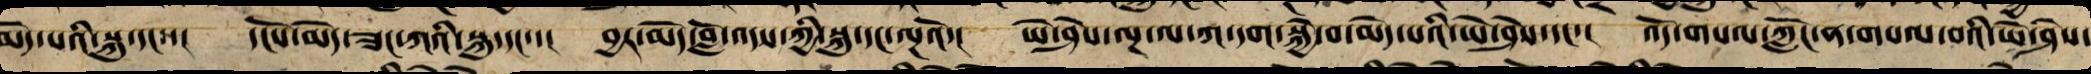མེད་པའི་སྐུ་དང་་། དངོས་མེད་ཟང་ཀའི་སྐུ་དང་་། བྱར་མེད་བློ་འདས་ཀྱི་སྐུ་དང་ལྔའོ་། ཡེ་ཤེས་ལྔ་ལ་ཀ་དག་སྐྱེ་བ་མེད་པའི་ཡེ་ཤེས་དང་་། འོད་གསལ་ཀློང་ནས་གསལ་བའི་ཡེ་ཤེས་
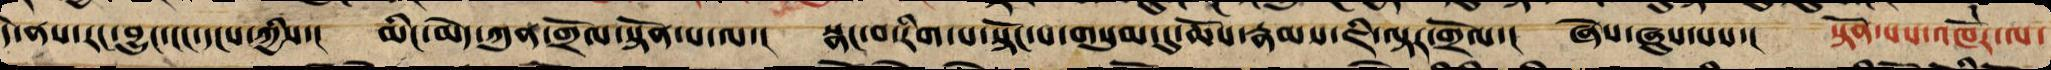ནས་རང་བྱུང་ངང་དངས་ཀྱིས་། མིང་མེད་ཀུན་གྲོལ་སྟོན་པ་ལ་། སྣང་བ་རིག་པ་སྟོང་པ་གསུམ་དུ་ཆོས་རྣམས་ཇི་ལྟར་གྲོལ་། ཞེས་ཞུས་པས་། སྟོན་པས་འཁོར་ལ་
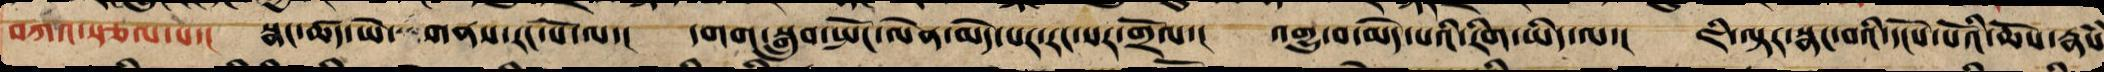བཀའ་སྩལ་པ་། སྣང་ཚད་ཡེ་གནས་རང་སོ་ལ་། དགག་བསྒྲུབ་སྤོང་ལེན་མེད་པར་རང་སར་གྲོལ་། འགྱུ་བ་མེད་པའི་རིག་ཡིད་ལ་། ཇི་ལྟར་སྣང་བའི་དངོས་པོའི་ཆོས་རྣཾས
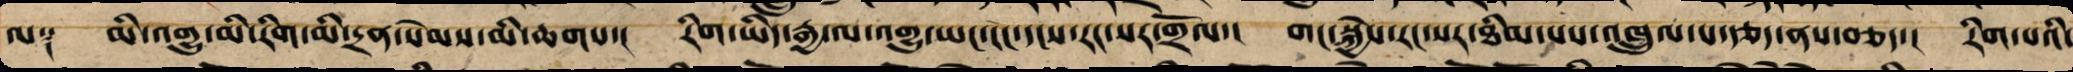ལ༑ མི་འགྱུ་མི་རིག་མི་དྲན་སེམས་མི་ཆགས་། རིག་ཡིད་རྒྱ་ལ་འགྱུ་ཡང་རང་དངས་རང་སར་གྲོལ་། གང་སྐྱེས་རང་སར་ཐིམས་པས་འཁྲུལ་པ་རྩད་ནས་བཅད་། རིག་པའི་
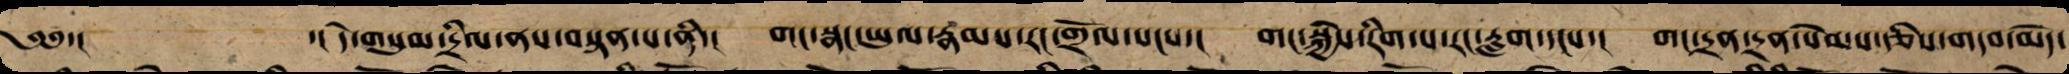༄༅་། ་། དེ་གསུམ་དྲིལ་ནས་བསྟན་པ་ནི་། གང་སྣང་ཡུལ་རྣམས་རང་གྲོལ་སངས་། གང་སྐྱེས་རིག་པ་རང་རླག་དངས་། གང་དྲན་དྲན་སེམས་རྩིས་གདབ་མེད་
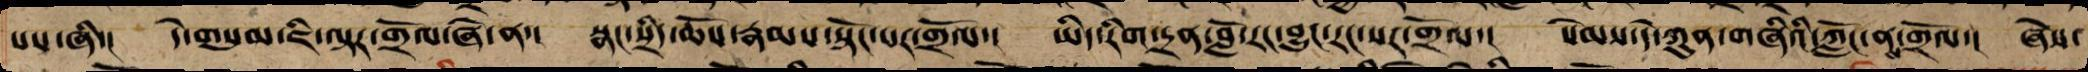པར་ཞི་། དེ་གསུམ་ཇི་ལྟར་གྲོལ་ཞེ་ན་། སྣང་སྲིད་ཆོས་རྣམས་སྟོང་པར་གྲོལ་། ཡིད་རིག་དྲན་བློ་རང་བྱུང་རང་སར་གྲོལ་། སེམས་དེ་ཀུན་གཞིའི་ཀློང་ནས་གྲོལ་། ཞེས་
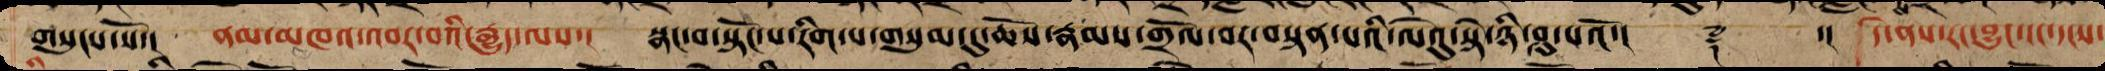གསུངས་སོ་། ནམ་མཁའ་འབར་བའི་རྒྱུད་ལས་། སྣང་བ་སྟོང་པ་རིག་པ་གསུམ་དུ་ཆོས་རྣམས་གྲོལ་བར་བསྟན་པའི་ལེའུ་སྟེ་ཉི་ཤུ་པའོ་།། ༈ ་།། དེ་ནས་རང་བྱུང་ངང་དངས་
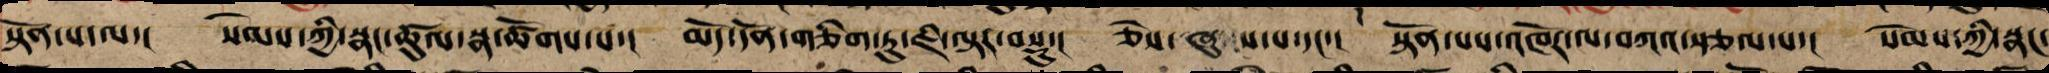སྟོན་པ་ལ་། སེམས་ཀྱི་སྣང་ཚུལ་སྣ་ཚོགས་པ་། མདོ་དོན་གཅིག་ཏུ་ཇི་ལྟར་བསྡུ་། ཅེས་ཞུས་པ་དང་་། སྟོན་པས་འཁོར་ལ་བཀའ་སྩལ་པ་། སེམས་ཀྱི་སྣང་
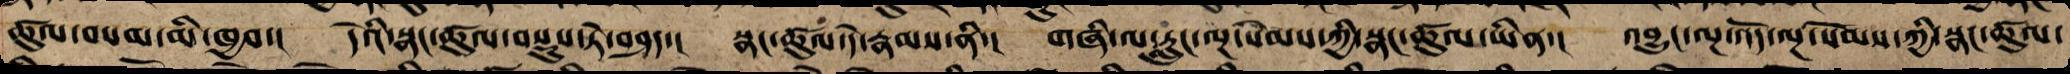ཚུལ་བསམ་མི་ཁྱབ་། དེའི་སྣང་ཚུལ་བསྡུས་ཏེ་བཤད་། སྣང་ཚུལ་དེ་རྣམས་ནི་། གཞི་ལ་རླུང་ལྔ་སེམས་ཀྱི་སྣང་ཚུལ་ཡིན་། འབྱུང་ལྔ་འོད་ལྔ་སེམས་ཀྱི་སྣང་ཚུལ་
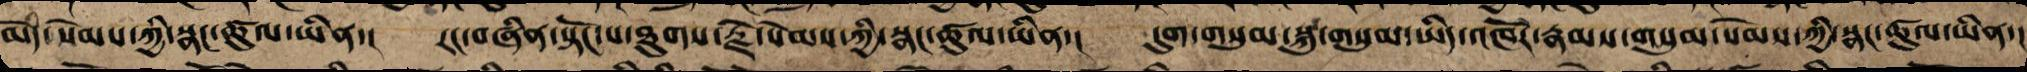མེད་སེམས་ཀྱི་སྣང་ཚུལ་ཡིན་། རང་བཞིན་སྟོང་པ་ཐུགས་རྗེ་སེམས་ཀྱི་སྣང་ཚུལ་ཡིན་། དུག་གསུམ་སྐུ་གསུམ་ཡིད་འཁོར་རྣམ་གསུམ་སེམས་ཀྱི་སྣང་ཚུལ་ཡིན་།
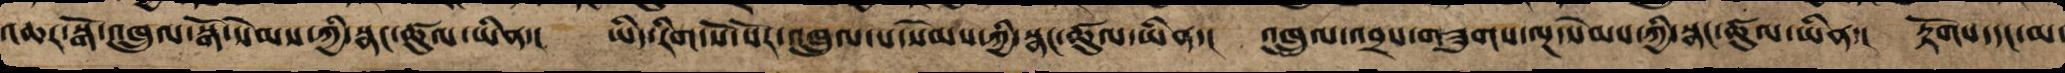འཆར་སྒོ་འཁྲུལ་སྒོ་སེམས་ཀྱི་སྣང་ཚུལ་ཡིན་། ཡིད་རིག་སོ་སོར་འཁྲུལ་པ་སེམས་ཀྱི་སྣང་ཚུལ་ཡིན་། འཁྲུལ་འབྲས་གཟུགས་ལྔ་སེམས་ཀྱི་སྣང་ཚུལ་ཡིན་། རྟོགས་དང་མ་
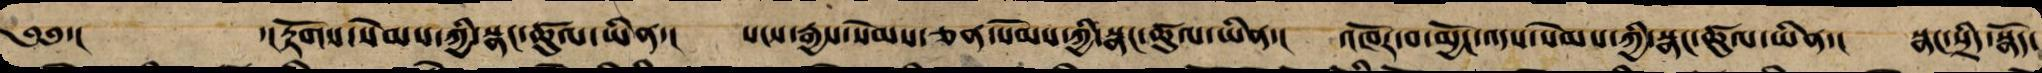༄༅་། ་།རྟོགས་སེམས་ཀྱི་སྣང་ཚུལ་ཡིན་། སངས་རྒྱས་སེམས་ཅན་སེམས་ཀྱི་སྣང་ཚུལ་ཡིན་། འཁོར་བ་མྱང་འདས་སེམས་ཀྱི་སྣང་ཚུལ་ཡིན་། སྣང་སྲིད་སྣོད་
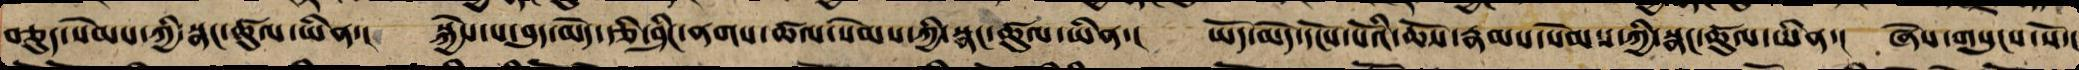བཅུད་སེམས་ཀྱི་སྣང་ཚུལ་ཡིན་། སྐྱེས་པ་བུད་མེད་རྩི་ཤིང་ནགས་ཚལ་སེམས་ཀྱི་སྣང་ཚུལ་ཡིན་། ཡོད་མེད་དངོས་པོའི་ཆོས་རྣམས་སེམས་ཀྱི་སྣང་ཚུལ་ཡིན་། ཞེས་གསུངས་སོ་།
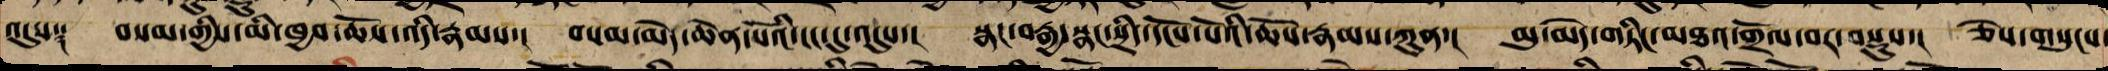འདུས༑ བསམ་གྱིས་མི་ཁྱབ་ཆོས་འདི་རྣམས་། བསམ་མེད་ཆེན་པོའི་ངང་དུ་འདུས་། སྣང་བརྒྱད་སྣང་སྲིད་དངོས་པོའི་ཆོས་རྣམས་ཀུན་། མུ་མེད་གཏིང་མཐའ་གྲོལ་བར་བསྡུས་། ཅེས་གསུངས
